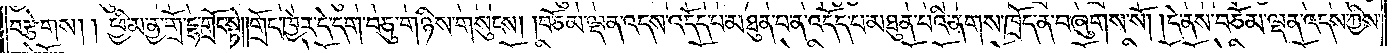བརྩེགས། །ཕྱི་མ་ནྱ་གྲོ་དྷ་གྲོང་སྟེ། །གྲོང་ཁྱེར་དེ་དག་བཅུ་གཉིས་གསུངས། །བཅོམ་ལྡན་འདས་འདོད་པ་མཐུན་པ་ན་འདོད་པ་མཐུན་པའི་ནགས་ཁྲོད་ན་བཞུགས་སོ། །དེ་ནས་བཅོམ་ལྡན་འདས་ཀྱིས་
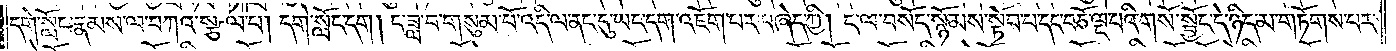དགེ་སློང་རྣམས་ལ་བཀའ་སྩལ་པ། དགེ་སློང་དག །ང་ཟླ་བ་གསུམ་པོ་འདི་ལ་ནང་དུ་ཡང་དག་འཇོག་པར་བཞེད་ཀྱི། ང་ལ་བསོད་སྙོམས་སྟོབ་པ་དང་བཅོ་ལྔ་པའི་གསོ་སྦྱོང་དེ་ཉིད་མ་གཏོགས་པར་
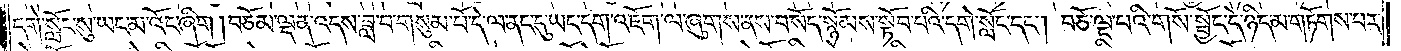དགེ་སློང་སུ་ཡང་མ་འོང་ཞིག །བཅོམ་ལྡན་འདས་ཟླ་བ་གསུམ་པོ་དེ་ལ་ནང་དུ་ཡང་དག་འཇོག་ལ་ཞུགས་ནས་བསོད་སྙོམས་སྟོབ་པའི་དགེ་སློང་དང༌། བཅོ་ལྔ་པའི་གསོ་སྦྱོང་དེ་ཉིད་མ་གཏོགས་པར་
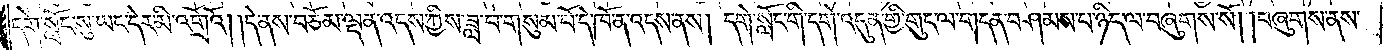དགེ་སློང་སུ་ཡང་དེར་མི་འགྲོའོ། །དེ་ནས་བཅོམ་ལྡན་འདས་ཀྱིས་ཟླ་བ་གསུམ་པོ་དེ་ཁོ་ན་འདས་ནས། དགེ་སློང་གི་དགེ་འདུན་གྱི་གུད་ལ་གདན་བཤམས་པ་ཉིད་ལ་བཞུགས་སོ། །བཞུགས་ནས་
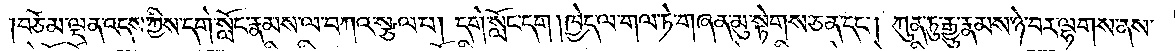།བཅོམ་ལྡན་འདས་ཀྱིས་དགེ་སློང་རྣམས་ལ་བཀའ་སྩལ་པ། དགེ་སློང་དག །ཁྱེད་ལ་གལ་ཏེ་གཞན་མུ་སྟེགས་ཅན་དང༌། ཀུན་ཏུ་རྒྱུ་རྣམས་ཉེ་བར་ལྷགས་ནས་
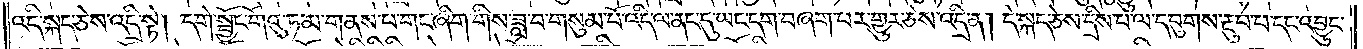འདི་སྐད་ཅེས་འདི་སྟེ། དགེ་སྦྱོང་གོའུ་ཏ་མ་གནས་པ་གང་ཞིག་གིས་ཟླ་བ་གསུམ་པོ་འདི་ལ་ནང་དུ་ཡང་དག་བཞག་པར་གྱུར་ཅེས་འདྲི་ན། དེ་སྐད་ཅེས་དྲིས་པ་ལ་དབུགས་རྔུབ་པ་དང་འབྱུང་
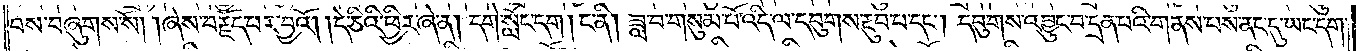བས་བཞུགས་སོ། །ཞེས་བརྗོད་པར་བྱའོ། །དེ་ཅིའི་ཕྱིར་ཞེ་ན། དགེ་སློང་དག། ང་ནི། ཟླ་བ་གསུམ་པོ་འདི་ལ་དབུགས་རྔུབ་པ་དང༌། དབུགས་འབྱུང་བ་དྲན་པའི་གནས་པས་ནང་དུ་ཡང་དག་
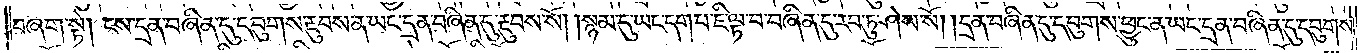བཞག་སྟེ། ངས་དྲན་བཞིན་དུ་དབུགས་རྔུབས་ན་ཡང་དྲན་བཞིན་དུ་རྔུབས་སོ། །སྙམ་དུ་ཡང་དག་པ་ཇི་ལྟ་བ་བཞིན་དུ་རབ་ཏུ་ཤེས་སོ། །དྲན་བཞིན་དུ་དབུགས་ཕྱུང་ན་ཡང་དྲན་བཞིན་དུ་དབུགས་
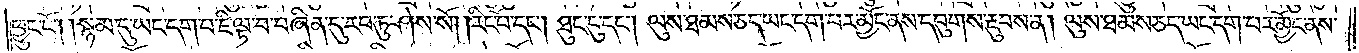ཕྱུང་ངོ༌། །སྙམ་དུ་ཡང་དག་པ་ཇི་ལྟ་བ་བཞིན་དུ་རབ་ཏུ་ཤེས་སོ། །རིང་པོ་དང༌། ཐུང་ངུ་དང༌། ལུས་ཐམས་ཅད་ཡང་དག་པར་མྱོང་ནས་དབུགས་རྔུབས་ན། ལུས་ཐམས་ཅད་ཡང་དག་པར་མྱོང་ནས་
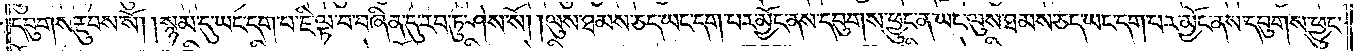དབུགས་རྔུབས་སོ། །སྙམ་དུ་ཡང་དག་པ་ཇི་ལྟ་བ་བཞིན་དུ་རབ་ཏུ་ཤེས་སོ། །ལུས་ཐམས་ཅད་ཡང་དག་པར་མྱོང་ནས་དབུགས་ཕྱུང་ན་ཡང་ལུས་ཐམས་ཅད་ཡང་དག་པར་མྱོང་ནས་དབུགས་ཕྱུང་
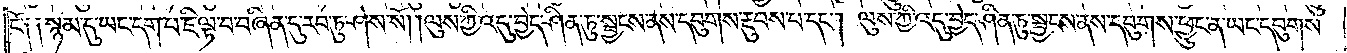ངོ ༑  ༑སྙམ་དུ་ཡང་དག་པ་ཇི་ལྟ་བ་བཞིན་དུ་རབ་ཏུ་ཤེས་སོ། །ལུས་ཀྱི་འདུ་བྱེད་ཤིན་ཏུ་སྦྱངས་ནས་དབུགས་རྔུབས་པ་དང༌། ལུས་ཀྱི་འདུ་བྱེད་ཤིན་ཏུ་སྦྱངས་ནས་དབུགས་ཕྱུང་ན་ཡང་དབུགས་
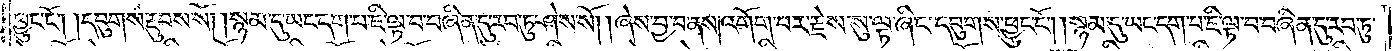ཕྱུང་ངོ༌། །དབུགས་རྔུབས་སོ། །སྙམ་དུ་ཡང་དག་པ་ཇི་ལྟ་བ་བཞིན་དུ་རབ་ཏུ་ཤེས་སོ། །ཞེས་བྱ་བ་ནས། འགོག་པར་རྗེས་སུ་ལྟ་ཞིང་དབུགས་ཕྱུང་ངོ༌། །སྙམ་དུ་ཡང་དག་པ་ཇི་ལྟ་བ་བཞིན་དུ་རབ་ཏུ་
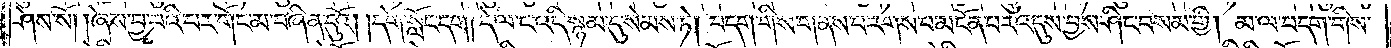ཤེས་སོ། །ཞེས་བྱ་བའི་བར་གོང་མ་བཞིན་དུའོ། །དགེ་སློང་དག། དེ་ལ་ང་འདི་སྙམ་དུ་སེམས་ཏེ། བདག་གིས་གནས་པ་རགས་པ་མངོན་པར་འདུས་བྱས་ཤིང་བསམ་གྱི། མ་ལ་བདག་གིས་
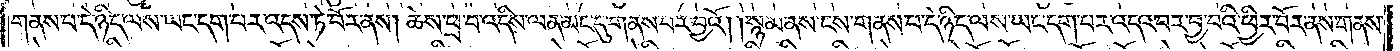གནས་པ་དེ་ཉིད་ལས་ཡང་དག་པར་འདས་ཏེ་བོར་ནས། ཆེས་ཕྲ་བ་འདིས་ལན་མང་དུ་གནས་པར་བྱའོ། །སྙམ་ནས་ངས་གནས་པ་དེ་ཉིད་ལས་ཡང་དག་པར་འདའ་བར་བྱ་བའི་ཕྱིར་བོར་ནས་གནས་
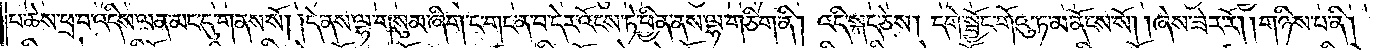པ་ཆེས་ཕྲ་བ་འདིས་ལན་མང་དུ་གནས་སོ། །དེ་ནས་ལྷ་གསུམ་ཞིག་ང་གང་ན་བ་དེར་འོངས་ཏེ་ཕྱིན་ནས་ལྷ་གཅིག་ནི། འདི་སྐད་ཅེས། དགེ་སྦྱོང་གོའུ་ཏ་མ་ནོངས་སོ། །ཞེས་ཟེར་རོ། །གཉིས་པ་ནི།
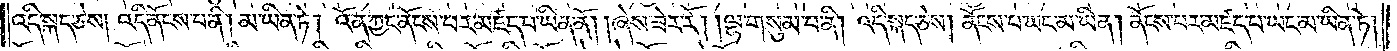འདི་སྐད་ཅེས། འདི་ནོངས་པ་ནི། མ་ཡིན་ཏེ། འོན་ཀྱང་ནོངས་པར་མཛད་པ་ཡིན་ནོ། །ཞེས་ཟེར་རོ། །ལྷ་གསུམ་པ་ནི། འདི་སྐད་ཅེས། ནོངས་པ་ཡང་མ་ཡིན། ནོངས་པར་མཛད་པ་ཡང་མ་ཡིན་ཏེ།
